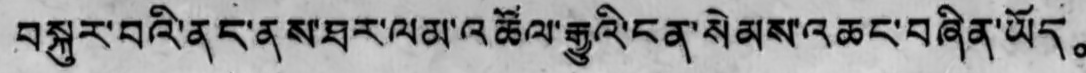བསྐུར་བའི་ནང་ནས་ཐར་ལམ་འཚོལ་རྒྱུའི་ངན་སེམས་འཆང་བཞིན་ཡོད。
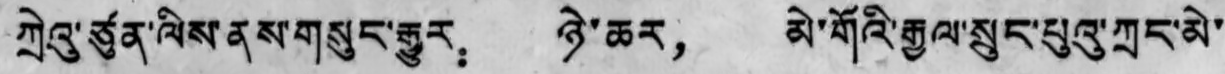ཀྲེའུ་ཙུན་ལིས་ནས་གསུང་རྒྱུར： ཉེ་ཆར， མེ་གོའི་རྒྱལ་སྲུང་པུའུ་ཀྲང་མེ་
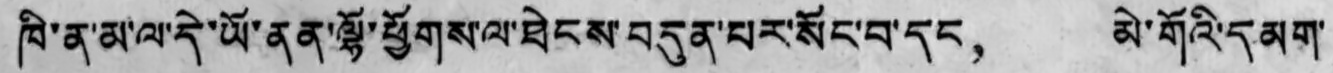ཁི་ན་མ་ལ་དེ་ཡོ་ནན་ལྷོ་ཕྱོགས་ལ་ཐེངས་བདུན་པར་སོང་བ་དང， མེ་གོའི་དམག་
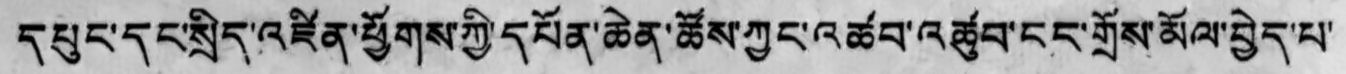དཔུང་དང་སྲིད་འཛིན་ཕྱོགས་ཀྱི་དཔོན་ཆེན་ཚོས་ཀྱང་འཚབ་འཚུབ་ངང་གྲོས་མོལ་བྱེད་པ་་
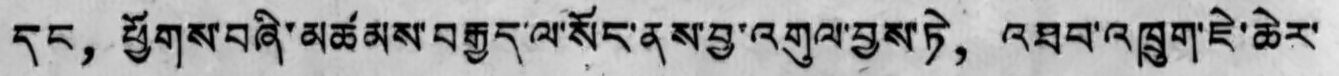དང，ཕྱོགས་བཞི་མཚམས་བརྒྱད་ལ་སོང་ནས་བྱ་འགུལ་བྱས་ཏེ， འཐབ་འཁྲུག་ཇེ་ཆེར་
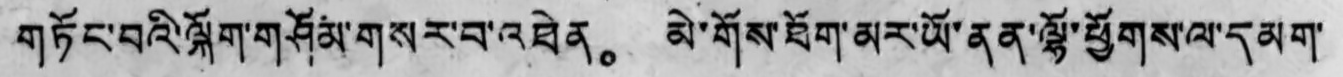གཏོང་བའི་ལྐོག་གཤོམ་གསར་བ་འཐེན。 མེ་གོས་ཐོག་མར་ཡོ་ནན་ལྷོ་ཕྱོགས་ལ་དམག་
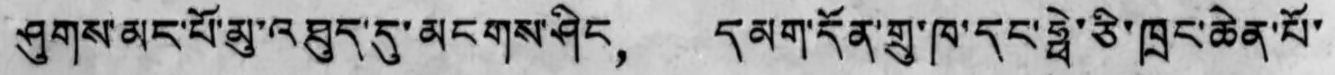ཤུགས་མང་པོ་མུ་འཐུད་དུ་མངགས་ཤིང， དམག་དོན་གྲུ་ཁ་དང་ཧྥེ་ཅི་ཁྲང་ཆེན་པོ་
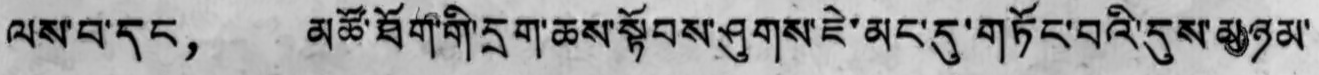ལས་པ་དང， མཚོ་ཐོག་གི་དྲག་ཆས་སྟོབས་ཤུགས་ཇེ་མང་དུ་གཏོང་བའི་དུས་མཉམ་
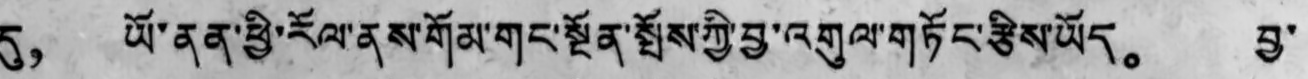དུ， ཡོ་ནན་ཕྱི་རོལ་ནས་གོམ་གང་སྔོན་སྤོས་ཀྱི་བྱ་འགུལ་གཏོང་རྩིས་ཡོད。 བྱ་
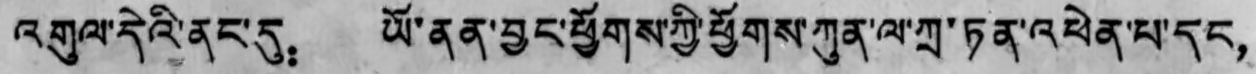འགུལ་དེའི་ནང་དུ： ཡོ་ནན་བྱང་ཕྱོགས་ཀྱི་ཕྱོགས་ཀུན་ལ་ཀྲ་ཏན་འཕེན་པ་དང，
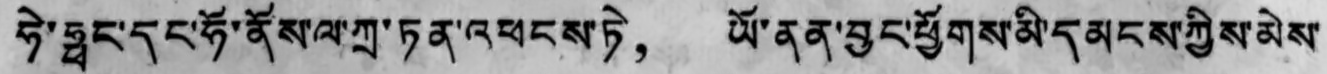ཧེ་ཧྥང་དང་ཧོ་ནོས་ལ་ཀྲ་ཏན་འཕངས་ཏེ， ཡོ་ནན་བྱང་ཕྱོགས་མི་དམངས་ཀྱིས་མེས་
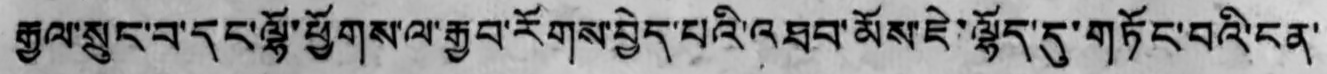རྒྱལ་སྲུང་བ་དང་ལྷོ་ཕྱོགས་ལ་རྒྱབ་རོགས་བྱེད་པའི་འཐབ་མོས་ཇེ་ལྷོད་དུ་གཏོང་བའི་ངན་
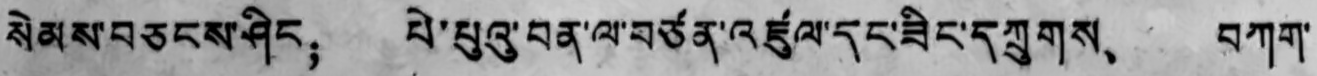སེམས་བཅངས་ཤིང； པེ་པུའུ་བན་ལ་བཙན་འཛུལ་དང་ཟིང་དཀྲུགས、 བཀག་
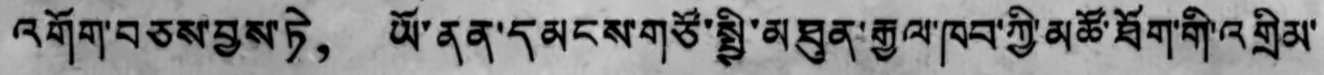འགོག་བཅས་བྱས་ཏེ， ཡོ་ནན་དམངས་གཙོ་སྤྱི་མཐུན་རྒྱལ་ཁབ་ཀྱི་མཚོ་ཐོག་གི་འགྲིམ་
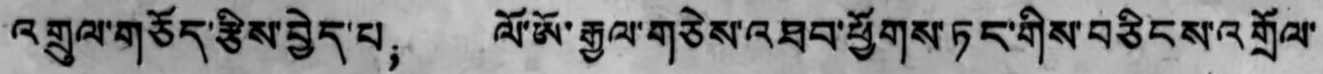འགྲུལ་གཅོད་རྩིས་བྱེད་པ； ལོ་ཨོ་རྒྱལ་གཅེས་འཐབ་ཕྱོགས་ཏང་གིས་བཅིངས་འགྲོལ་
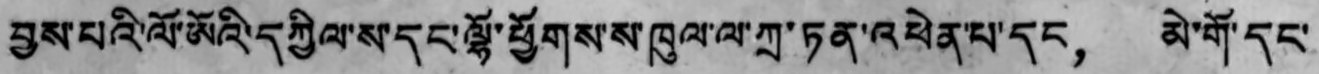བྱས་པའི་ལོ་ཨོའི་དཀྱིལ་ས་དང་ལྷོ་ཕྱོགས་ས་ཁུལ་ལ་ཀྲ་ཏན་འཕེན་པ་དང， མེ་གོ་དང་
